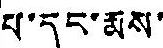པ་དང་རྨས་
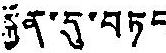སྐྱོན་དུ་བཏང
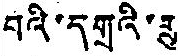བའི་དགྲའི་གྲུ
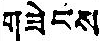གཟེངས
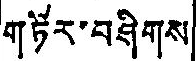གཏོར་བཤིགས
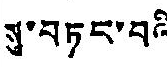སུ་བཏང་བའི
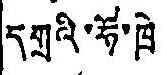དགྲའི་ཧོ་ཁྲེ་
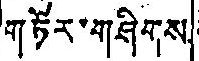གཏོར་གཤིགས
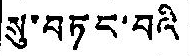སུ་བཏང་བའི
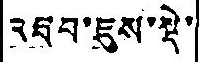འཐབ་ཇུས་སྡེ
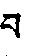བ
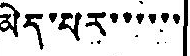མེད་པར་་་་་་
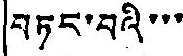བཏང་བའི་་་
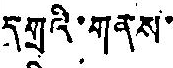དགྲའི་གནས་
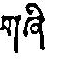གཞི
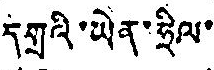དགྲའི་ཡེན་ཧྲིལ་
